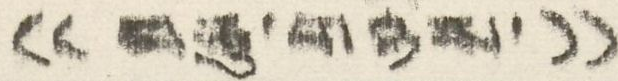(( བཅུ་གཉིས་ ))
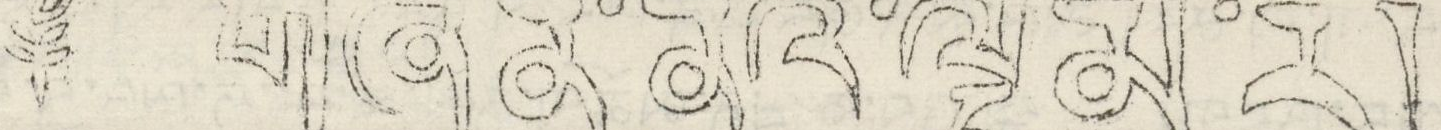༈ གཞོན་ནུའི་ལྡུམ་ར།
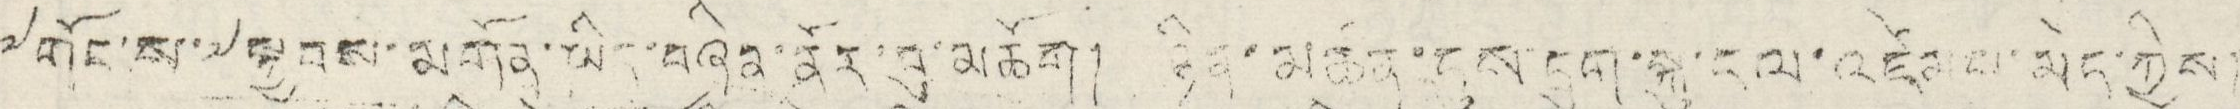༸གོང་ས་༸སྐྱབས་མགོན་ཡིད་བཞིན་ནོར་བུ་མཆོག། ཉིན་མཚན་དུས་དྲུག་སྐུ་ངལ་འཛེམས་མེད་ཀྱིས།
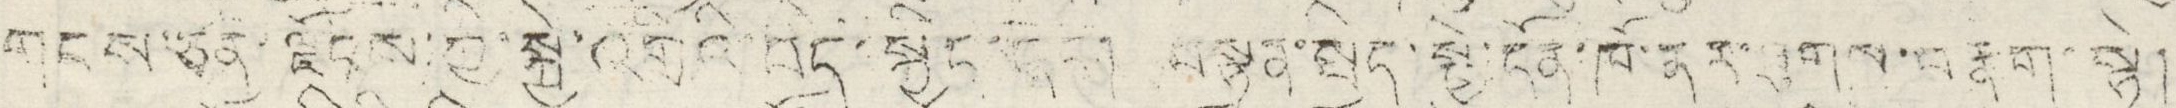གངས་ཅན་ལྗོངས་ཀྱི་སྐྱེ་འགྲོའི་བདེ་སྐྱིད་དང་། བསྟན་སྲིད་སྤྱི་དོན་ཁོ་ནར་ཐུགས་བརྣག་སྟེ།
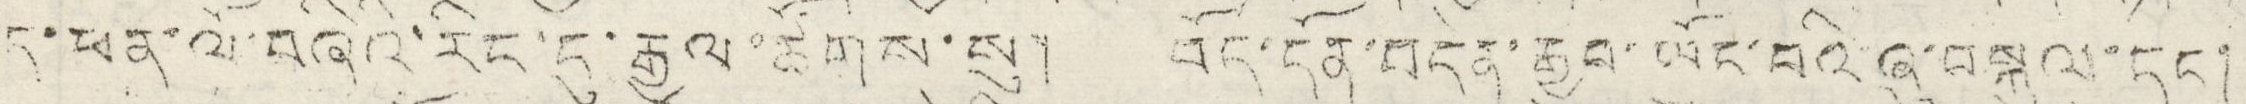ད་ཕན་ལོ་བཞིའི་རིང་དུ་རྒྱལ་ཚོགས་སུ། བོད་དོན་བདེན་རྒྱབ་ཡོངས་བའི་ཞུ་བསྐུལ་དང་།
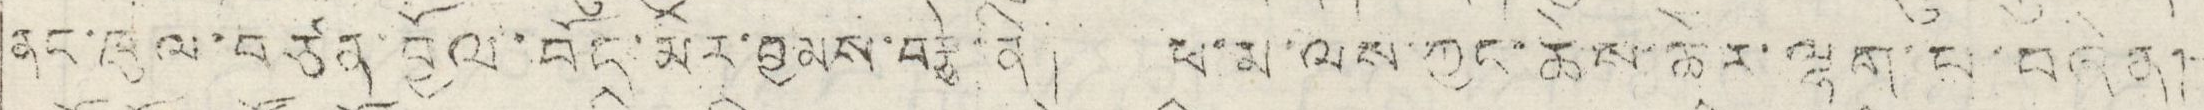ནང་ཁུལ་བཙན་བྱོལ་བོད་མིར་བྱམས་བརྩེ་ནི། ཕ་མ་ལས་ཀྱང་ཆེས་ཆེར་ལྷག་པ་བཞིན།
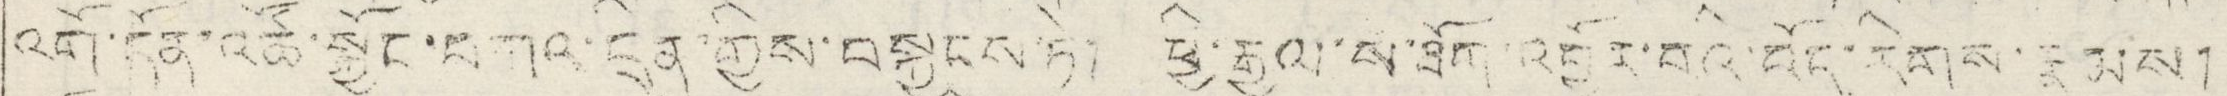འགོ་དོན་འཚོ་སྐྱོང་བཀའ་དྲིན་གྱིས་བསྐྱངས་ཏེ། ཕྱི་རྒྱལ་ས་ཐོག་འབྱོར་བའི་བོད་རིགས་རྣམས།
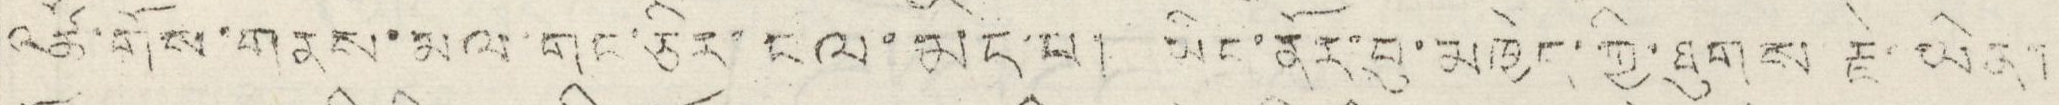འཚོ་གོས་གནས་མལ་གང་ཅིར་ངལ་མེད་པ། ཡིད་ནོར་བུ་མཁྱེན་ཀྱི་ཐུགས་རྗེ་ཡིན།
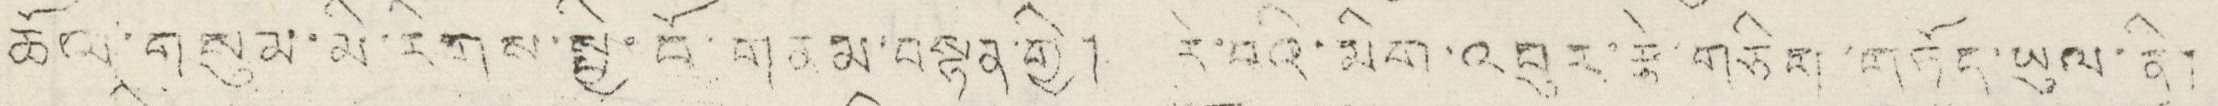ཆོལ་གསུམ་མི་རིགས་སྤྱི་བོ་གནམ་བསྟན་གྱི། རེ་བའི་མིག་འབུར་རྣེ་གཅིག་གཏོད་ཡུལ་ནི།
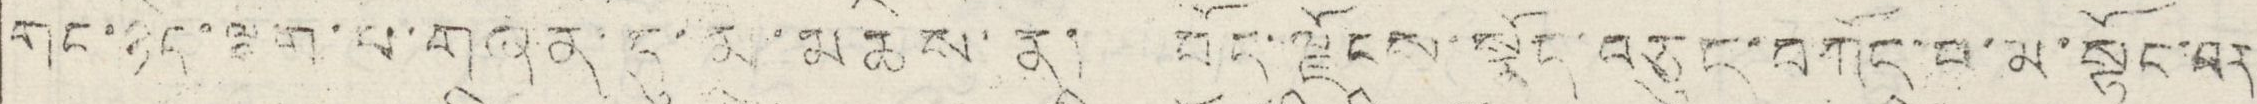གང་ཉིད་ལྷག་པ་གཞན་དུ་མ་མཆིས་ནས། བོད་ལྗོངས་སྣོད་བཅུད་བཀོད་བ་མ་སྟོང་བར།
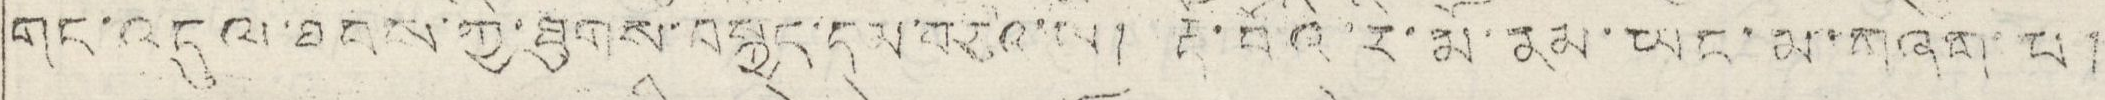གང་འདུལ་ཐབས་ཀྱི་ཐུགས་བསྐྱེད་དམ་བཅའ་ཡི། རྡོ་བོའི་རི་མོ་ནམ་ཡང་མ་གཞིག་པ།
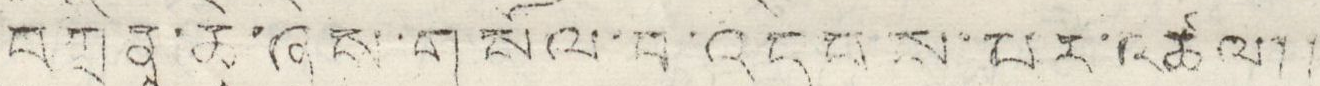བཀྲིན་ཆེ་ཞེས་གསོལ་བ་འདེབས་པར་འཚལ།།
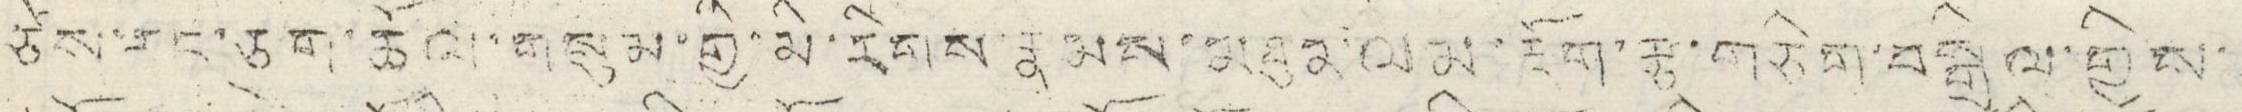ཙེས་རང་ཅག་ཆོལ་གསུམ་གྱི་མི་རིགས་རྣམས་མཐུན་ལམ་རྡོག་རྩ་གཅིག་བསྒྲིལ་གྱིས་
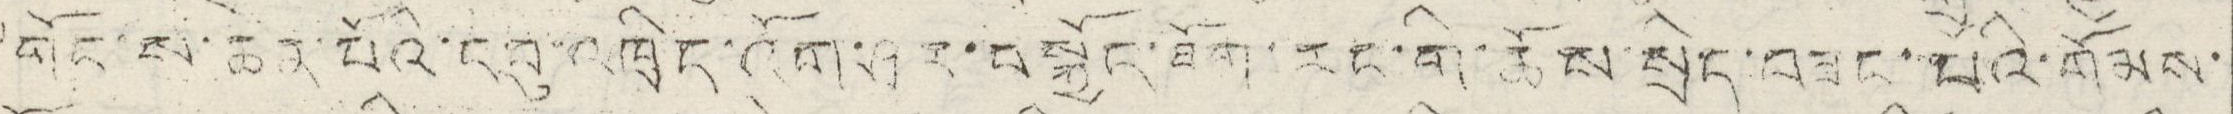༸གོང་ས་ཆེན་པོའི་དབུ་འཁྲིད་འོག་ཤར་བསྐྱོད་ཐོག་རང་གི་ཆོས་སྲིད་བཟང་པའི་གོམས་
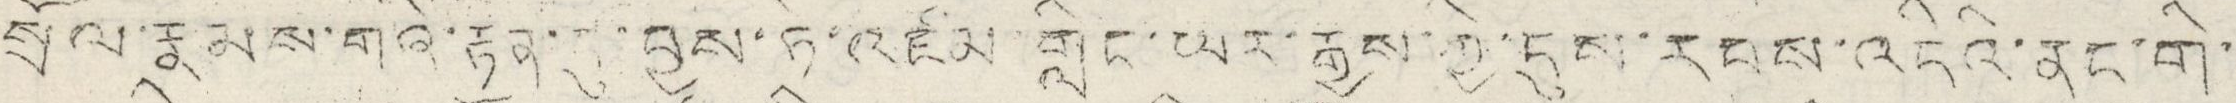སྲོལ་རྣམས་གཞི་རྟན་དུ་བྱས་ཏེ་འཛམ་གླིང་ཡར་རྒྱས་ཀྱི་དུས་རབས་འདིའི་ནང་གི་
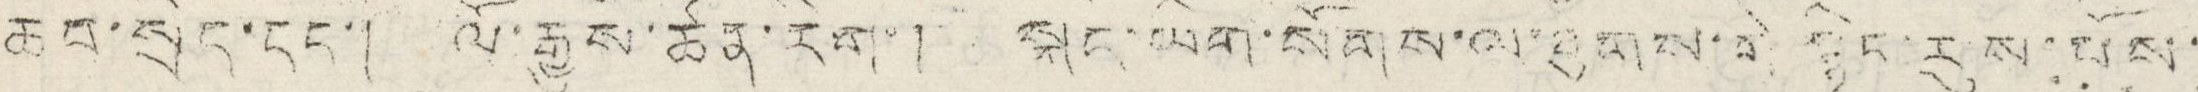ཆབ་སྲིད་དང་། ལོ་རྒྱུས་ཚན་རིག་། སྐད་ཡིག་སོགས་ལ་ཐུགས་རེ་སྙིང་རུས་པོས་
